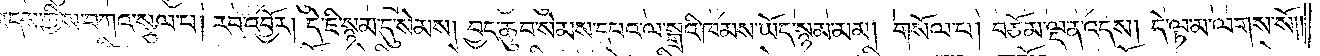ལྡན་འདས་ཀྱིས་བཀའ་སྩལ་པ། རབ་འབྱོར། དེ་ཇི་སྙམ་དུ་སེམས། བྱང་ཆུབ་སེམས་དཔའ་ལ་སྒྲའི་ཁམས་ཡོད་སྙམ་མམ། གསོལ་པ། བཅོམ་ལྡན་འདས། དེ་ལྟ་མ་ལགས་སོ།
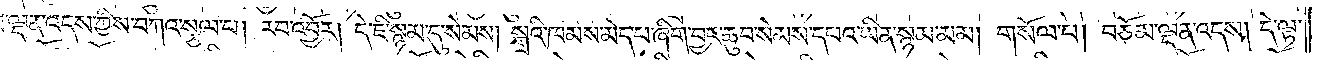བཅོམ་ལྡན་འདས་ཀྱིས་བཀའ་སྩལ་པ། རབ་འབྱོར། དེ་ཇི་སྙམ་དུ་སེམས། སྒྲའི་ཁམས་མེད་པ་ཞིག་བྱང་ཆུབ་སེམས་དཔའ་ཡིན་སྙམ་མམ། གསོལ་པ། བཅོམ་ལྡན་འདས། དེ་ལྟ་
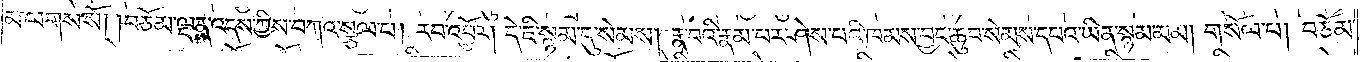མ་ལགས་སོ། །བཅོམ་ལྡན་འདས་ཀྱིས་བཀའ་སྩལ་པ། རབ་འབྱོར། དེ་ཇི་སྙམ་དུ་སེམས། རྣ་བའི་རྣམ་པར་ཤེས་པའི་ཁམས་བྱང་ཆུབ་སེམས་དཔའ་ཡིན་སྙམ་མམ། གསོལ་པ། བཅོམ་
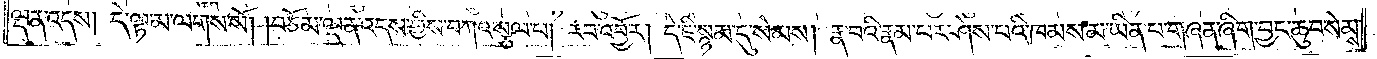ལྡན་འདས། དེ་ལྟ་མ་ལགས་སོ། །བཅོམ་ལྡན་འདས་ཀྱིས་བཀའ་སྩལ་པ། རབ་འབྱོར། དེ་ཇི་སྙམ་དུ་སེམས། རྣ་བའི་རྣམ་པར་ཤེས་པའི་ཁམས་མ་ཡིན་པ་གཞན་ཞིག་བྱང་ཆུབ་སེམས་
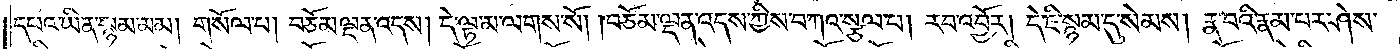དཔའ་ཡིན་སྙམ་མམ། གསོལ་པ། བཅོམ་ལྡན་འདས། དེ་ལྟ་མ་ལགས་སོ། །བཅོམ་ལྡན་འདས་ཀྱིས་བཀའ་སྩལ་པ། རབ་འབྱོར། དེ་ཇི་སྙམ་དུ་སེམས། རྣ་བའི་རྣམ་པར་ཤེས་
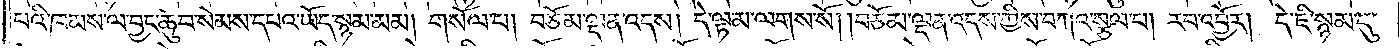པའི་ཁམས་ལ་བྱང་ཆུབ་སེམས་དཔའ་ཡོད་སྙམ་མམ། གསོལ་པ། བཅོམ་ལྡན་འདས། དེ་ལྟ་མ་ལགས་སོ། །བཅོམ་ལྡན་འདས་ཀྱིས་བཀའ་སྩལ་པ། རབ་འབྱོར། དེ་ཇི་སྙམ་དུ་
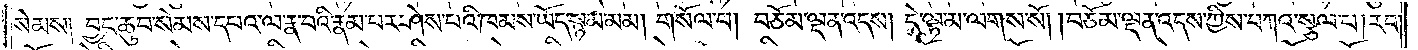སེམས། བྱང་ཆུབ་སེམས་དཔའ་ལ་རྣ་བའི་རྣམ་པར་ཤེས་པའི་ཁམས་ཡོད་སྙམ་མམ། གསོལ་པ། བཅོམ་ལྡན་འདས། དེ་ལྟ་མ་ལགས་སོ། །བཅོམ་ལྡན་འདས་ཀྱིས་བཀའ་སྩལ་པ། རབ་
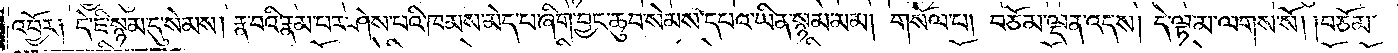འབྱོར༑ དེ་ཇི་སྙམ་དུ་སེམས། རྣ་བའི་རྣམ་པར་ཤེས་པའི་ཁམས་མེད་པ་ཞིག་བྱང་ཆུབ་སེམས་དཔའ་ཡིན་སྙམ་མམ། གསོལ་པ། བཅོམ་ལྡན་འདས། དེ་ལྟ་མ་ལགས་སོ། །བཅོམ་
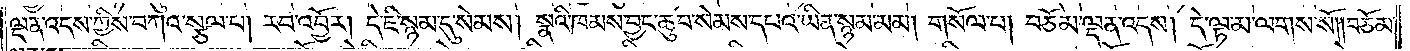ལྡན་འདས་ཀྱིས་བཀའ་སྩལ་པ། རབ་འབྱོར། དེ་ཇི་སྙམ་དུ་སེམས། སྣའི་ཁམས་བྱང་ཆུབ་སེམས་དཔའ་ཡིན་སྙམ་མམ། གསོལ་པ། བཅོམ་ལྡན་འདས། དེ་ལྟ་མ་ལགས་སོ། །བཅོམ་
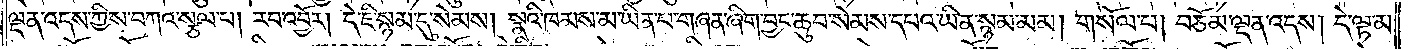ལྡན་འདས་ཀྱིས་བཀའ་སྩལ་པ། རབ་འབྱོར། དེ་ཇི་སྙམ་དུ་སེམས། སྣའི་ཁམས་མ་ཡིན་པ་གཞན་ཞིག་བྱང་ཆུབ་སེམས་དཔའ་ཡིན་སྙམ་མམ། གསོལ་པ། བཅོམ་ལྡན་འདས། དེ་ལྟ་མ་
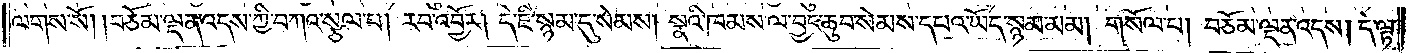ལགས་སོ། །བཅོམ་ལྡན་འདས་ཀྱི་བཀའ་སྩལ་པ། རབ་འབྱོར། དེ་ཇི་སྙམ་དུ་སེམས། སྣའི་ཁམས་ལ་བྱང་ཆུབ་སེམས་དཔའ་ཡོད་སྙམ་མམ། གསོལ་པ། བཅོམ་ལྡན་འདས། དེ་ལྟ་
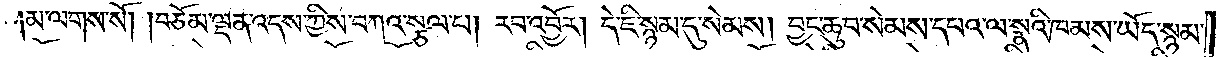མ་ལགས་སོ། །བཅོམ་ལྡན་འདས་ཀྱིས་བཀའ་སྩལ་པ། རབ་འབྱོར། དེ་ཇི་སྙམ་དུ་སེམས། བྱང་ཆུབ་སེམས་དཔའ་ལ་སྣའི་ཁམས་ཡོད་སྙམ་
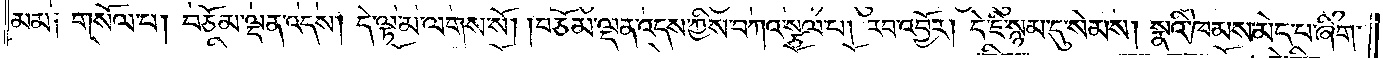མམ༑ གསོལ་པ། བཅོམ་ལྡན་འདས། དེ་ལྟ་མ་ལགས་སོ། །བཅོམ་ལྡན་འདས་ཀྱིས་བཀའ་སྩལ་པ། རབ་འབྱོར། དེ་ཇི་སྙམ་དུ་སེམས། སྣའི་ཁམས་མེད་པ་ཞིག་
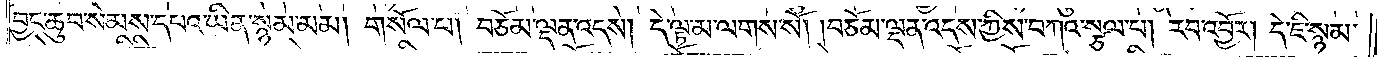བྱང་ཆུབ་སེམས་དཔའ་ཡིན་སྙམ་མམ། གསོལ་པ། བཅོམ་ལྡན་འདས། དེ་ལྟ་མ་ལགས་སོ། །བཅོམ་ལྡན་འདས་ཀྱིས་བཀའ་སྩལ་པ། རབ་འབྱོར། དེ་ཇི་སྙམ་
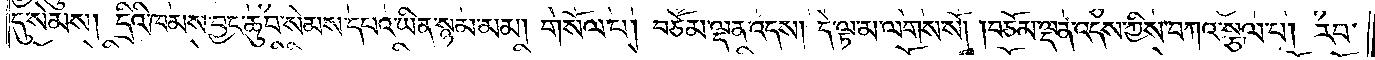དུ་སེམས། དྲིའི་ཁམས་བྱང་ཆུབ་སེམས་དཔའ་ཡིན་སྙམ་མམ། གསོལ་པ། བཅོམ་ལྡན་འདས། དེ་ལྟ་མ་ལགས་སོ། །བཅོམ་ལྡན་འདས་ཀྱིས་བཀའ་སྩལ་པ། རབ་
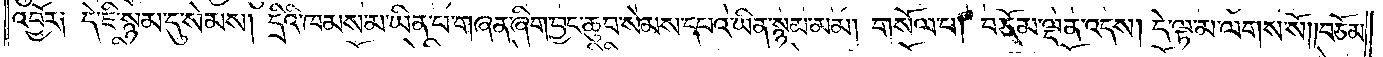འབྱོར༑ དེ་ཇི་སྙམ་དུ་སེམས། དྲིའི་ཁམས་མ་ཡིན་པ་གཞན་ཞིག་བྱང་ཆུབ་སེམས་དཔའ་ཡིན་སྙམ་མམ། གསོལ་པ། བཅོམ་ལྡན་འདས། དེ་ལྟ་མ་ལགས་སོ། །བཅོམ་
